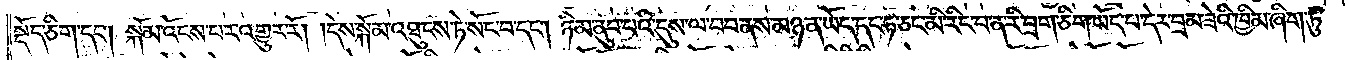སྡོད་ཅིག་དང༌། སྐོམ་འོངས་པར་འགྱུར་རོ། །དེས་སྐོམ་འཐུངས་ཏེ་སོང་བ་དང༌། ཉི་མ་ནུབ་པའི་དུས་ལ་བབ་ནས་མཉན་ཡོད་དང་ཧ་ཅང་མི་རིང་བ་ན་རི་བྲག་ཅིག་ཡོད་པ་དེར་བྲམ་ཟེའི་ཁྱིམ་ཞིག་ཏུ་
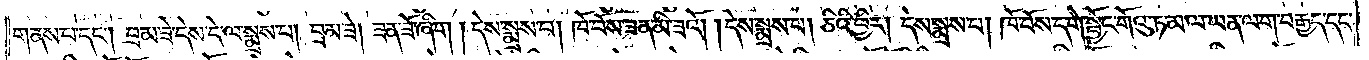གནས་པ་དང༌། བྲམ་ཟེ་དེས་དེ་ལ་སྨྲས་པ། བྲམ་ཟེ། ཟན་ཟོ་ཞིག །དེས་སྨྲས་པ། ཁོ་བོས་ཟན་མི་ཟའོ། །དེས་སྨྲས་པ། ཅིའི་ཕྱིར། དེས་སྨྲས་པ། ཁོ་བོས་དགེ་སྦྱོང་གོའུ་ཏ་མ་ལ་ཡན་ལག་བརྒྱད་དང་
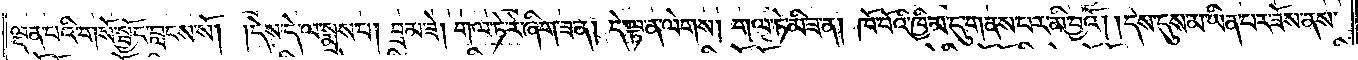ལྡན་པའི་གསོ་སྦྱོང་བླངས་སོ། །དེས་དེ་ལ་སྨྲས་པ། བྲམ་ཟེ། གལ་ཏེ་རེ་ཞིག་ཟ་ན། དེ་ལྟ་ན་ལེགས། གལ་ཏེ་མི་ཟ་ན། ཁོ་བོའི་ཁྱིམ་དུ་གནས་པར་མི་བྱའོ། །དེས་དུས་མ་ཡིན་པར་ཟོས་ནས་
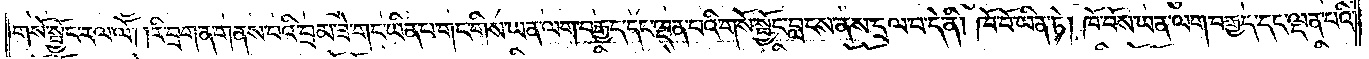གསོ་སྦྱོང་རལ་ལོ། །རི་བྲག་ན་གནས་པའི་བྲམ་ཟེ་གང་ཡིན་པ་གང་གིས་ཡན་ལག་བརྒྱད་དང་ལྡན་པའི་གསོ་སྦྱོང་བླངས་ནས་དྲལ་བ་དེ་ནི། ཁོ་བོ་ཡིན་ཏེ། ཁོ་བོས་ཡན་ལག་བརྒྱད་དང་ལྡན་པའི་
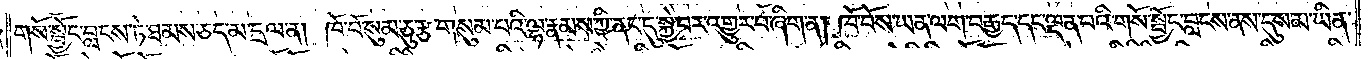གསོ་སྦྱོང་བླངས་ཏེ་ཐམས་ཅད་མ་དྲལ་ན། ཁོ་བོ་སུམ་ཅུ་རྩ་གསུམ་པའི་ལྷ་རྣམས་ཀྱི་ནང་དུ་སྐྱེ་བར་འགྱུར་བ་ཞིག་ན། ཁོ་བོས་ཡན་ལག་བརྒྱད་དང་ལྡན་པའི་གསོ་སྦྱོང་བླངས་ནས་དུས་མ་ཡིན་
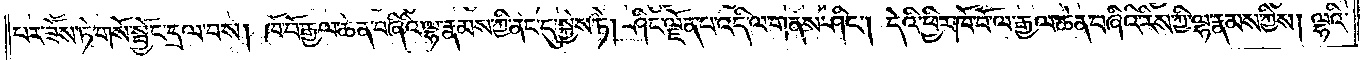པར་ཟོས་ཏེ་གསོ་སྦྱོང་དྲལ་བས། ཁོ་བོ་རྒྱལ་ཆེན་བཞིའི་ལྷ་རྣམས་ཀྱི་ནང་དུ་སྐྱེས་ཏེ། ཤིང་ལྗོན་པ་འདི་ལ་གནས་ཤིང༌། དེའི་ཕྱིར་ཁོ་བོ་ལ་རྒྱལ་ཆེན་བཞིའི་རིས་ཀྱི་ལྷ་རྣམས་ཀྱིས། ལྷའི་
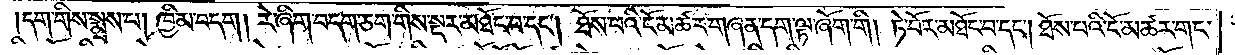དག་གིས་སྨྲས་པ། ཁྱིམ་བདག །རེ་ཞིག་བདག་ཅག་གིས་སྔར་མཐོང་བ་དང༌། ཐོས་པའི་ངོ་མཚར་གཞན་དག་ལྟ་ཞོག་གི །ཏེ་བོར་མཐོང་བ་དང༌། ཐོས་པའི་ངོ་མཚར་གང་
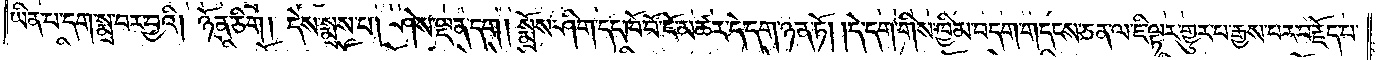ཡིན་པ་དག་སྨྲ་བར་བྱའི། ཉོན་ཅིག །དེས་སྨྲས་པ། ཤེས་ལྡན་དག །སྨྲོས་ཤིག་དང་ཁོ་བོ་ངོ་མཚར་དེ་དག་ཉན་ཏོ། །དེ་དག་གིས་ཁྱིམ་བདག་གདངས་ཅན་ལ་ཇི་ལྟར་གྱུར་པ་རྒྱས་པར་བརྗོད་པ་
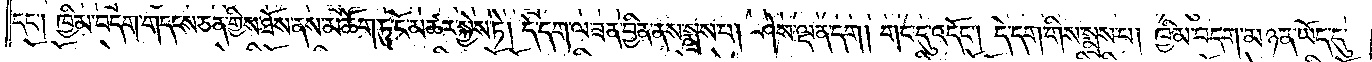དང༌། ཁྱིམ་བདག་གདངས་ཅན་གྱིས་ཐོས་ནས་མཆོག་ཏུ་ངོ་མཚར་སྐྱེས་ཏེ། དེ་དག་ལ་ཟན་བྱིན་ནས་སྨྲས་པ། ཤེས་ལྡན་དག །གང་དུ་འདོང༌། དེ་དག་གིས་སྨྲས་པ། ཁྱིམ་བདག་མཉན་ཡོད་དུ་
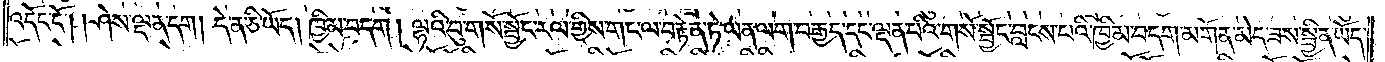འདོང་ངོ༌། །ཤེས་ལྡན་དག །དེ་ན་ཅི་ཡོད། ཁྱིམ་བདག །ལྷའི་བུ་གསོ་སྦྱོང་རལ་གྱིས་གང་ལ་བརྟེན་ཏེ་ཡན་ལག་བརྒྱད་དང་ལྡན་པའི་གསོ་སྦྱོང་བླངས་པའི་ཁྱིམ་བདག་མགོན་མེད་ཟས་སྦྱིན་ཡོད་
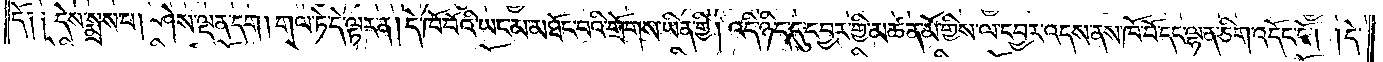དོ༑ ༑དེས་སྨྲས་པ། ཤེས་ལྡན་དག །གལ་ཏེ་དེ་ལྟར་ན། དེ་ཁོ་བོའི་ཡང་མ་མཐོང་བའི་གྲོགས་ཡིན་གྱི། འདི་ཉིད་དུ་དབྱར་གྱི་མཚན་མོ་གྱིས་ལ་དབྱར་འདས་ནས་ཁོ་བོ་དང་ལྷན་ཅིག་འདོང་ངོ༌། །དེ་
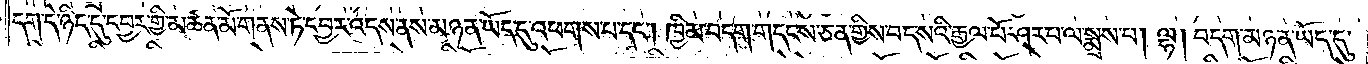དག་དེ་ཉིད་དུ་དབྱར་གྱི་མཚན་མོ་གནས་ཏེ་དབྱར་འདས་ནས་མཉན་ཡོད་དུ་འཕགས་པ་དང༌། ཁྱིམ་བདག་གདངས་ཅན་གྱིས་བད་སའི་རྒྱལ་པོ་ཤར་པ་ལ་སྨྲས་པ། ལྷ། བདག་མཉན་ཡོད་དུ་
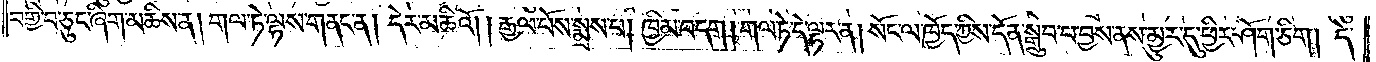བགྱི་བ་ཅུང་ཞིག་མཆིས་ན། གལ་ཏེ་ལྷས་གནང་ན། དེར་མཆིའོ། །རྒྱལ་པོས་སྨྲས་པ། ཁྱིམ་བདག །གལ་ཏེ་དེ་ལྟར་ན། སོང་ལ་ཁྱོད་ཀྱིས་དོན་སྒྲུབ་པ་བྱས་ནས་མྱུར་དུ་ཕྱིར་ཤོག་ཅིག །དེ་
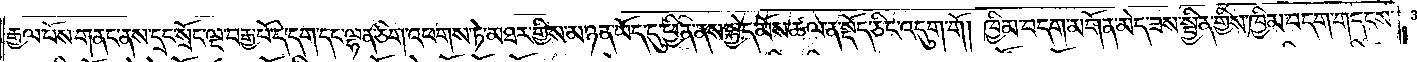རྒྱལ་པོས་གནང་ནས་དྲང་སྲོང་ལྔ་བརྒྱ་པོ་དེ་དག་དང་ལྷན་ཅིག་འཕགས་ཏེ་མཐར་གྱིས་མཉན་ཡོད་དུ་ཕྱིན་ནས་སྐྱེད་མོས་ཚལ་ན་སྡོད་ཅིང་འདུག་གོ །ཁྱིམ་བདག་མགོན་མེད་ཟས་སྦྱིན་གྱིས་ཁྱིམ་བདག་གདངས་
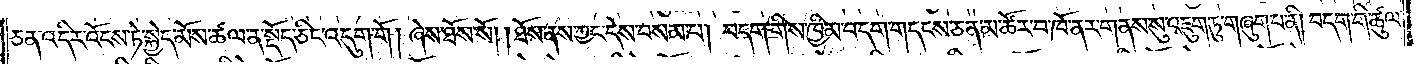ཅན་འདིར་འོངས་ཏེ་སྐྱེད་མོས་ཚལ་ན་སྡོད་ཅིང་འདུག་གོ །ཞེས་ཐོས་སོ། །ཐོས་ནས་ཀྱང་དེས་བསམ་པ། བདག་གིས་ཁྱིམ་བདག་གདངས་ཅན་མ་ཚོར་བ་ཁོ་ནར་གནས་སུ་འཇུག་ཏུ་གཞུག་པ་ནི། བདག་གི་ཚུལ་
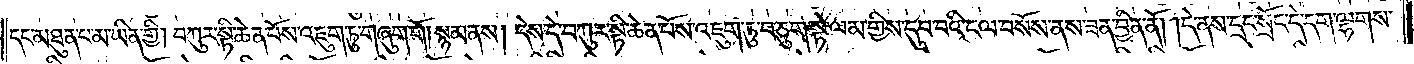དང་མཐུན་པ་མ་ཡིན་གྱི། བཀུར་སྟི་ཆེན་པོས་འཇུག་ཏུ་གཞུག་གོ །སྙམ་ནས། དེས་དེ་བཀུར་སྟི་ཆེན་པོས་འཇུག་ཏུ་བཅུག་སྟེ་ལམ་གྱིས་དུབ་པའི་ངལ་བསོས་ནས་ཟན་བྱིན་ནོ། །དེ་ནས་དྲང་སྲོང་དེ་དག་ལྷགས་
